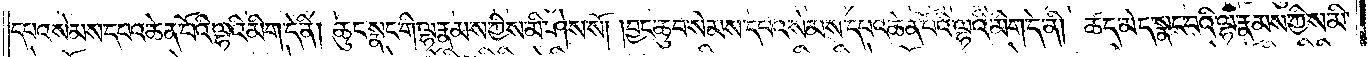དཔའ་སེམས་དཔའ་ཆེན་པོའི་ལྷའི་མིག་དེ་ནི། ཆུང་སྣང་གི་ལྷ་རྣམས་ཀྱིས་མི་ཤེས་སོ། །བྱང་ཆུབ་སེམས་དཔའ་སེམས་དཔའ་ཆེན་པོའི་ལྷའི་མིག་དེ་ནི། ཚད་མེད་སྣང་བའི་ལྷ་རྣམས་ཀྱིས་མི་
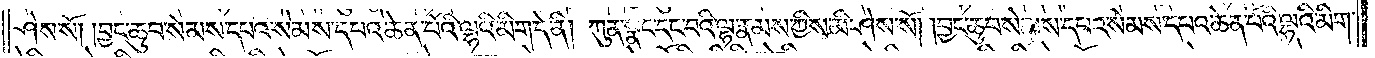ཤེས་སོ། །བྱང་ཆུབ་སེམས་དཔའ་སེམས་དཔའ་ཆེན་པོའི་ལྷའི་མིག་དེ་ནི། ཀུན་སྣང་དང་བའི་ལྷ་རྣམས་ཀྱིས་མི་ཤེས་སོ། །བྱང་ཆུབ་སེམས་དཔའ་སེམས་དཔའ་ཆེན་པོའི་ལྷའི་མིག་
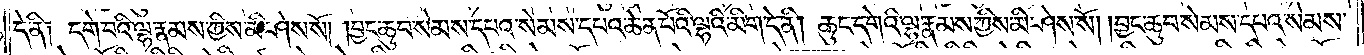དེ་ནི༑ དགེ་བའི་ལྷ་རྣམས་ཀྱིས་མི་ཤེས་སོ། །བྱང་ཆུབ་སེམས་དཔའ་སེམས་དཔའ་ཆེན་པོའི་ལྷའི་མིག་དེ་ནི། ཆུང་དགེའི་ལྷ་རྣམས་ཀྱིས་མི་ཤེས་སོ། །བྱང་ཆུབ་སེམས་དཔའ་སེམས་
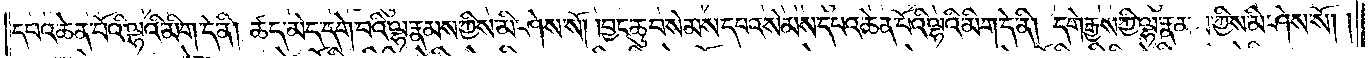དཔའ་ཆེན་པོའི་ལྷའི་མིག་དེ་ནི། ཚད་མེད་དགེ་བའི་ལྷ་རྣམས་ཀྱིས་མི་ཤེས་སོ། །བྱང་ཆུབ་སེམས་དཔའ་སེམས་དཔའ་ཆེན་པོའི་ལྷའི་མིག་དེ་ནི། དགེ་རྒྱས་ཀྱི་ལྷ་རྣམས་ཀྱིས་མི་ཤེས་སོ། །
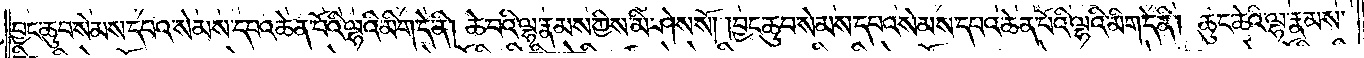བྱང་ཆུབ་སེམས་དཔའ་སེམས་དཔའ་ཆེན་པོའི་ལྷའི་མིག་དེ་ནི། ཆེ་བའི་ལྷ་རྣམས་ཀྱིས་མི་ཤེས་སོ། །བྱང་ཆུབ་སེམས་དཔའ་སེམས་དཔའ་ཆེན་པོའི་ལྷའི་མིག་དེ་ནི། ཆུང་ཆེའི་ལྷ་རྣམས་
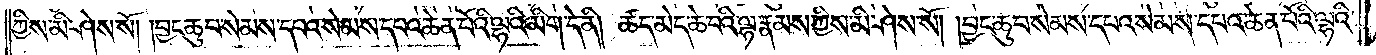ཀྱིས་མི་ཤེས་སོ། །བྱང་ཆུབ་སེམས་དཔའ་སེམས་དཔའ་ཆེན་པོའི་ལྷའི་མིག་དེ་ནི། ཚད་མེད་ཆེ་བའི་ལྷ་རྣམས་ཀྱིས་མི་ཤེས་སོ། །བྱང་ཆུབ་སེམས་དཔའ་སེམས་དཔའ་ཆེན་པོའི་ལྷའི་
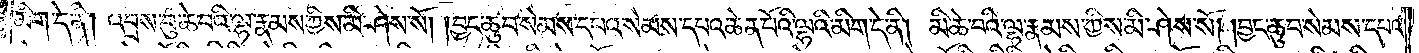མིག་དེ་ནི། འབྲས་བུ་ཆེ་བའི་ལྷ་རྣམས་ཀྱིས་མི་ཤེས་སོ། །བྱང་ཆུབ་སེམས་དཔའ་སེམས་དཔའ་ཆེན་པོའི་ལྷའི་མིག་དེ་ནི། མི་ཆེ་བའི་ལྷ་རྣམས་ཀྱིས་མི་ཤེས་སོ། །བྱང་ཆུབ་སེམས་དཔའ་
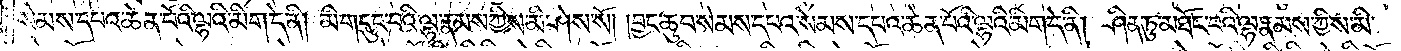སེམས་དཔའ་ཆེན་པོའི་ལྷའི་མིག་དེ་ནི། མི་གདུང་བའི་ལྷ་རྣམས་ཀྱིས་མི་ཤེས་སོ། །བྱང་ཆུབ་སེམས་དཔའ་སེམས་དཔའ་ཆེན་པོའི་ལྷའི་མིག་དེ་ནི། ཤིན་ཏུ་མཐོང་བའི་ལྷ་རྣམས་ཀྱིས་མི་
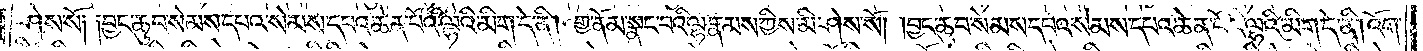ཤེས་སོ༑ ༑བྱང་ཆུབ་སེམས་དཔའ་སེམས་དཔའ་ཆེན་པོའི་ལྷའི་མིག་དེ་ནི། གྱ་ནོམ་སྣང་བའི་ལྷ་རྣམས་ཀྱིས་མི་ཤེས་སོ། །བྱང་ཆུབ་སེམས་དཔའ་སེམས་དཔའ་ཆེན་པོའི་ལྷའི་མིག་དེ་ནི། འོག་
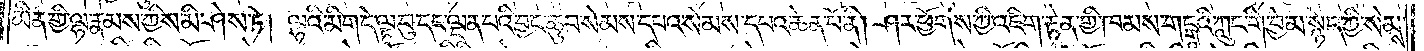མིན་གྱི་ལྷ་རྣམས་ཀྱིས་མི་ཤེས་ཏེ། ལྷའི་མིག་དེ་ལྟ་བུ་དང་ལྡན་པའི་བྱང་ཆུབ་སེམས་དཔའ་སེམས་དཔའ་ཆེན་པོ་ནི། ཤར་ཕྱོགས་ཀྱི་འཇིག་རྟེན་གྱི་ཁམས་གངྒཱའི་ཀླུང་གི་བྱེ་མ་སྙེད་ཀྱི་སེམས་
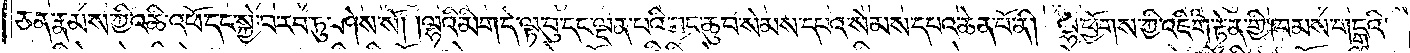ཅན་རྣམས་ཀྱི་འཆི་འཕོ་དང་སྐྱེ་བ་རབ་ཏུ་ཤེས་སོ། །ལྷའི་མིག་དེ་ལྟ་བུ་དང་ལྡན་པའི་བྱང་ཆུབ་སེམས་དཔའ་སེམས་དཔའ་ཆེན་པོ་ནི། ལྷོ་ཕྱོགས་ཀྱི་འཇིག་རྟེན་གྱི་ཁམས་གངྒཱའི་
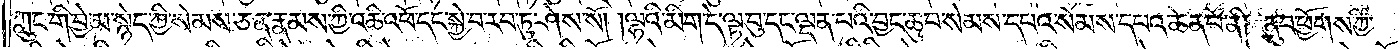ཀླུང་གི་བྱེ་མ་སྙེད་ཀྱི་སེམས་ཅན་རྣམས་ཀྱི་འཆི་འཕོ་དང་སྐྱེ་བ་རབ་ཏུ་ཤེས་སོ། །ལྷའི་མིག་དེ་ལྟ་བུ་དང་ལྡན་པའི་བྱང་ཆུབ་སེམས་དཔའ་སེམས་དཔའ་ཆེན་པོ་ནི། ནུབ་ཕྱོགས་ཀྱི་
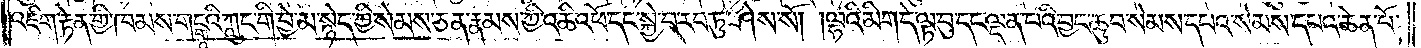འཇིག་རྟེན་གྱི་ཁམས་གངྒཱའི་ཀླུང་གི་བྱེ་མ་སྙེད་ཀྱི་སེམས་ཅན་རྣམས་ཀྱི་འཆི་འཕོ་དང་སྐྱེ་བ་རབ་ཏུ་ཤེས་སོ། །ལྷའི་མིག་དེ་ལྟ་བུ་དང་ལྡན་པའི་བྱང་ཆུབ་སེམས་དཔའ་སེམས་དཔའ་ཆེན་པོ་
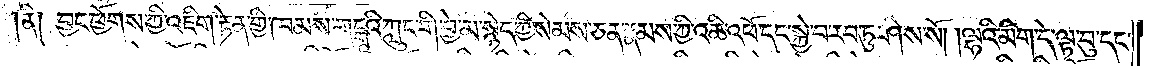ནི། བྱང་ཕྱོགས་ཀྱི་འཇིག་རྟེན་གྱི་ཁམས་གངྒཱའི་ཀླུང་གི་བྱེ་མ་སྙེད་ཀྱི་སེམས་ཅན་རྣམས་ཀྱི་འཆི་འཕོ་དང་སྐྱེ་བ་རབ་ཏུ་ཤེས་སོ། །ལྷའི་མིག་དེ་ལྟ་བུ་དང་
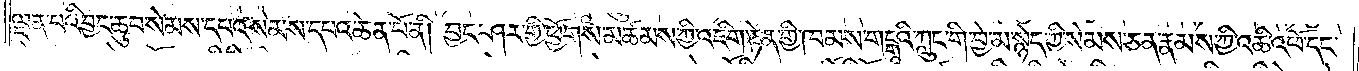ལྡན་པའི་བྱང་ཆུབ་སེམས་དཔའ་སེམས་དཔའ་ཆེན་པོ་ནི། བྱང་ཤར་གྱི་ཕྱོགས་མཚམས་ཀྱི་འཇིག་རྟེན་གྱི་ཁམས་གངྒཱའི་ཀླུང་གི་བྱེ་མ་སྙེད་ཀྱི་སེམས་ཅན་རྣམས་ཀྱི་འཆི་འཕོ་དང་
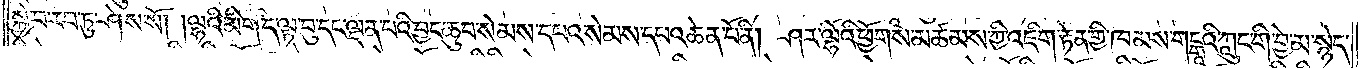སྐྱེ་བ་རབ་ཏུ་ཤེས་སོ། །ལྷའི་མིག་དེ་ལྟ་བུ་དང་ལྡན་པའི་བྱང་ཆུབ་སེམས་དཔའ་སེམས་དཔའ་ཆེན་པོ་ནི། ཤར་ལྷོའི་ཕྱོགས་མཚམས་ཀྱི་འཇིག་རྟེན་གྱི་ཁམས་གངྒཱའི་ཀླུང་གི་བྱེ་མ་སྙེད་
